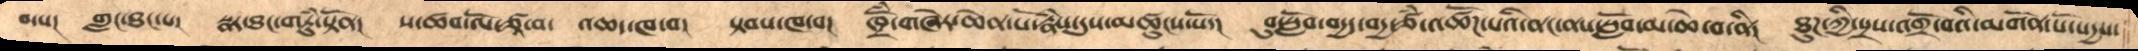བ་པ།   གླང་ཐང་པ།   སྣར་ཐང་གཏུཾ་སྟོན།   ས་་ཚབ་ལོ་ཙཱ་བ།  འཆད་ཁ་བ།  སྟབས་ཁ་བ། ཁྲོཾ་གཞེར་ཆེན་པོ་རྣཾས་དུས་མཚུངས་སོ།   བུ་སློབ་བདྱད་བདྱ་ཙཾ་འཚོཌ་པའི་ནང་ནས་སློབ་མ་ཆེ་བ་ནི།   ཐུཌ་ཀྱི་སྲས་འགྲོ་བའི་མགོན་པོ་སདྱས་
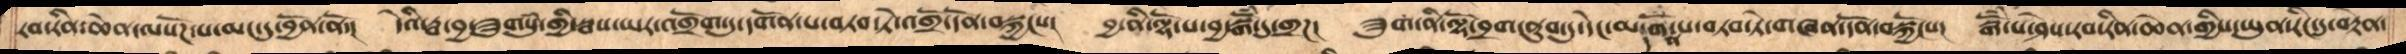རབ་རིན་ཆེན་ལསོཌ་པ་མང་དུ་བྱོན་ནོ།  དེའི་རྦ་བྱ་ཟུགསུཾ་གྱིས་སྦས་ཡར་འགྲོག་དུ་དགོན་པ་བཏབ་ཏེ་འགྲོ་དོན་བསྐྱངས།  བྱ་ནི་ལྷོ་པ་བྱ་སྒོཾ་དུ་གྲཌ། ཟུག་ནི་ལྷོ་བྲག་ནུབ་དུ་དེང་མ་དགོན་པ་བཏབ་ཏེ་གཞན་དོན་བསྐྱོངས།  སྒོཾ་པ་ཤེས་རབ་རིན་ཆེན་གྱིས་ཡུན་རིང་དུ་བརྟེན་
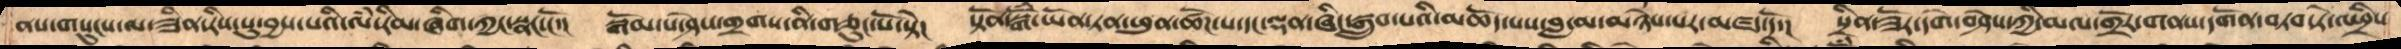ནས་གསུངས་ལ་ཟིན་རིས་སུ་བྱས་པའི་ལཾ་རིམ་ཞིག་ཀྱང་སྣང་ངོ་།  སྒོམ་པ་ཤེས་གྲགས་ནི་གཅུང་པོ་སྟེ།  སྟོན་སྒོཾ་ཡོན་ཏན་ཕུན་ཚོཌ་པ་དང་ལྡན་ཞིང་སྒྲུབ་པའི་མཆོད་པས་བླ་མ་མཉེས་པར་མཛད་དོ།  སྲིན་ཟོར་དགེ་བཤེས་་ཀྱི་མལ་གྲོར་གནས་དགོན་བཏབ་ཏེ་འཕྲིས
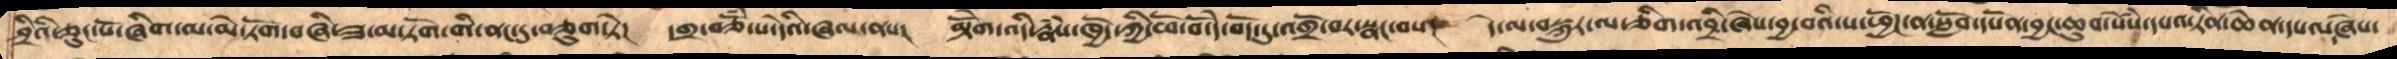ཤྲིའི་ཅུང་པོ་ཞིག་མ་མེ་ཏོག་བཞི་ཟ་མ་ཏོག་གི་ནང་དུ་བཅུག་ཏེ།  དགྲ་བཅོཾ་པ་དེའི་ཞལ་ནས།  མྟེགོ་འདི་རྣཾས་ཁྱོད་ཀྱི་ཕོ་བོ་དེ་བོད་དུ་འགྲོ་བར་སྣང་བས།   དེ་ལ་བསྐུར་ལ་ཅིག་འབྲི་ཞེས་བྱ་བའི་ས་ཕྱོཌ་ན་སློབ་དཔོན་བྱང་ཆུབ་སེཾས་དཔའ་རིན་ཆེན་དཔལ་ཞེས་
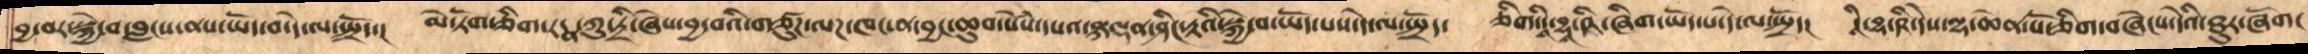བྱ་བར་སྐྱེ་བ་བླངས་ནས་ཡོད་པ་དེ་ལ་སྤྲོད།   མེ་ཏོག་ཅིག་རངྣ་ཀུ་ཏྲི་ཞེས་བྱ་བའི་གཙུག་ལཌ་ཁང་ན་བྱང་ཆུབ་སེཾས་དཔའ་སྐལྡན་ཤིང་རྟའི་སྐྱེ་བ་ཡོད་པས་དེ་ལ་སྤྲོད།   ཅིག་དཱི་བྷ་ཥི་ཞིག་ཡོད་པ་དེ་ལ་སྤྲོད།   དཱི་བྷ་ཥི་དེས་ལྷ་ཆེན་པོ་ཅིག་བཞེངས་དེའི་ཐུར་ཞོག་
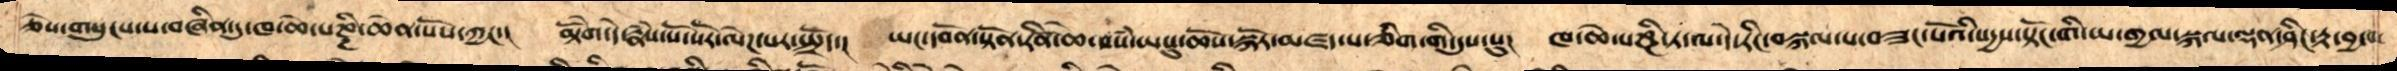ཅེས་གསུངས་པ་བཞིན་དུ་ཁ་ཆེ་པཎྜི་ཆེན་པོས་ཀྱང་།   མྟེགོ་དེ་རྣཾས་སོ་སོར་ལེཌ་པར་སྤྲོད་།   ཡང་དབོན་སྟོན་རིན་ཆེ་བསཾ་ཡསུ་ཆོས་སྐོར་མཛད་པ་ཅིག་གི་དུས་སུ།   ཁ་ཆེ་པཎྜི་ཏ་ལ་དེ་རིང་བསྐལ་པ་བཟང་པོའི་སདྱས་སྟོང་གི་ཡ་གྱལ་སྐལ་ལྡན་ཤིང་རྟ་བྱ་བ་
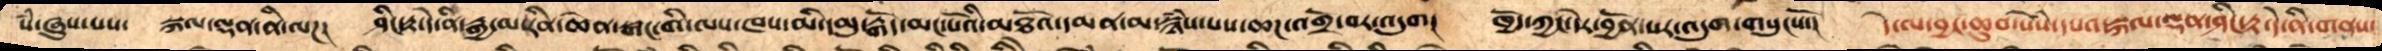སཾ་ཞུས་པས།  སྐལ་ལྡན་ནི་ལཌ།   ཤིང་རྟ་དེ་ནི་རྒྱ་མ་རིན་ཆེན་སྒང་གི་ལས་ཁས་མི་དམུ་རྒོད་མང་པོའི་མཐོ་དམན་མ་ཉཾས་པས་ཆཌ་འགྲོ་བར་འདུག   ཁྱོད་ཀྱང་དེར་བྱོན་པར་འདུག་གསུངསོ་།   དེ་ལ་བྱང་ཆུབ་སེཾས་དཔའ་སྐལ་ལྡན་ཤིང་རྟ་དེ་ནི་གནས་
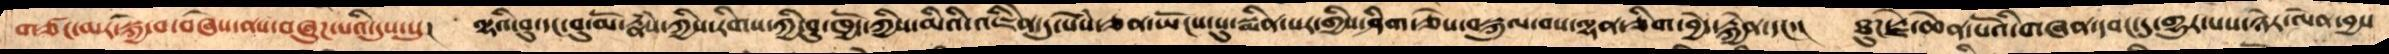གཙང་མར་སྐྱེ་བ་བཞེས་ནས་བཞུཌ་པའི་དུས་སུ།   ལྷའི་བུ་དང་བུ་མོ་རྣཾས་ཀྱིས་རིགས་ཀྱི་བུ་ཁྱོད་ཀྱིས་མིའི་འཇིནེ་དུ་སེཾས་ཅན་ཡོངས་སུ་སྨིན་པར་གྱིས་ཤིག་ཅེས་བསྐུལ་བས་ལྷན་ཅིག་བྱེད་རྐྱེན་དང་།   ཐུགས་རྗེ་ཆེན་པོའི་གཞན་དབང་དུ་གྱུར་པས་ཉེར་ལེན་བྱས
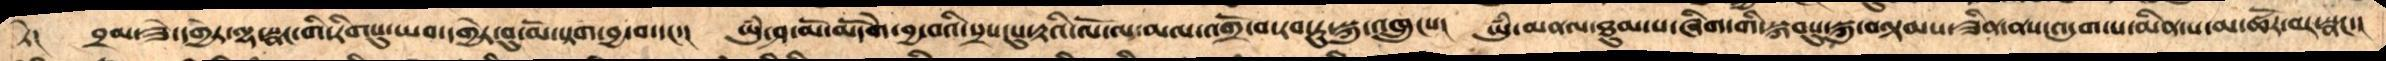ཏེ།  བྲམ་ཟེ་དགྱེར་ལྷ་སྣང་གི་རིགསུ་ཡབ་དགྱེར་བུ་མོ་སྟག་བྱ་བ་དང་།   ཡུཾ་ཤ་མོ་མདོགེ་བྱ་བའི་སྲས་སུ་རྟའི་ལོ་ལ་མལ་འགྲོ་བ་རབ་ཏུ་སྐུའཁྲུངས།  ཡུཾ་མནལ་ཐུམ་པ་ཞིག་གི་སྐབསུ་སྐུ་བལྟམས་ཟིན་ནས་འདུག་པ་མིན་པ་མ་ཚོར་བར་སྣང་།
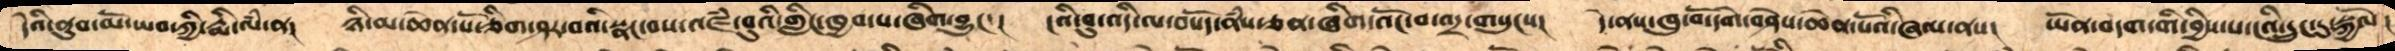དེའི་ནུབ་མོ་ཡབ་ཀྱི་རྨི་ལཾ་ན།   ཉི་མ་ཆེན་པོ་ཅིག་ཤར་བའི་སྣང་བས་འཛཾ་བུའི་གླིང་ཁྱབ་པ་ཞིག་བྱུང་།  ངའི་བུ་འདི་ལ་བསོད་ནཾས་ཅན་ཞིག་འོང་བ་འདྲ་གསུངས།    དེ་ནས་ཁུ་བོ་དགེ་བཤེས་ཆེན་པོའི་ཞལ་ནས།   ཡོན་བདག་གི་བྱིས་པ་ངའི་དྲུང་དུ་སྐྱོལ།
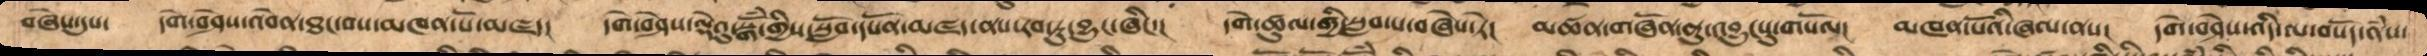བཞེས་དུས་    དགེ་བཤེས་འབེན་ཐང་བས་མཁན་པོ་མཛད།    དགེ་བཤེས་ལྡེའུ་སྒོཾ་གྱིས་སློབ་དཔོན་མཛད་ནས་རབ་ཏུ་བྱུང་ཞིང་།    དགེ་ཚུལ་གྱི་སླབ་པ་བཞེས་ཏེ།   མཚན་གཞོན་ནུ་འབྱུངསུ་གསོལ།   མཁན་པོའི་ཞལ་ནས།   དགེ་བཤེས་འདི་ལ་བསོད་ནཾས་
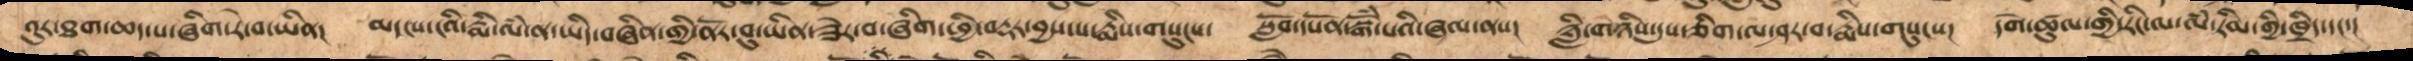འུར་ཐག་ཆད་པ་ཞིག་རེ་བ་ཡིན།   མདངས་ངའི་རྨི་ལཾ་ན་ཡིད་བཞིན་གྱི་ནོར་བུ་ཡིན་ཟེར་བ་ཞིག་ཕྱི་བརྡར་བྱས་པ་རྨིས་གསུངས།   སློབ་དཔོན་སྒོཾ་པའི་ཞལ་ནས།   ནླི་གཉིས་དུས་ཅིག་ལ་ཤར་བ་རྨིས་གསུངས།   དགེ་ཚུལ་གྱི་རིང་ལ་ལཾ་རིམ་གྱི་ཁྲིད་དང་།
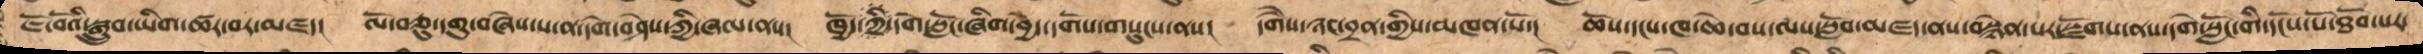ཇོ་བོའི་སྒྲུབ་ཡིག་ཚར་བར་མཛད།   ལོ་བཅུ་དགུ་བཞེས་པ་ན་དགེ་བཤེས་ཀྱི་ཞལ་ནས།   ཁྱོད་ཀྱི་དགེ་སློང་ཞིག་བྱེད་དགོས་གསུངས་ནས   དགཻས་ཉང་བྲན་གྱིས་མཁན་པོ་།   ཆོས་དངས་ཁ་ཆེས་བས་ལས་སློབ་མཛད་ནས་བསྙེན་པར་སྫོགས་ནས་དགེ་སློང་གི་དངོས་པོ་ཐོབ་པར་
